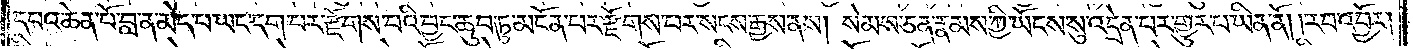དཔའ་ཆེན་པོ་བླ་ན་མེད་པ་ཡང་དག་པར་རྫོགས་པའི་བྱང་ཆུབ་ཏུ་མངོན་པར་རྫོགས་པར་སངས་རྒྱས་ནས། སེམས་ཅན་རྣམས་ཀྱི་ཡོངས་སུ་འདྲེན་པར་གྱུར་པ་ཡིན་ནོ། །རབ་འབྱོར།
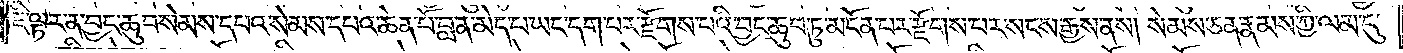ཇི་ལྟར་ན་བྱང་ཆུབ་སེམས་དཔའ་སེམས་དཔའ་ཆེན་པོ་བླ་ན་མེད་པ་ཡང་དག་པར་རྫོགས་པའི་བྱང་ཆུབ་ཏུ་མངོན་པར་རྫོགས་པར་སངས་རྒྱས་ནས། སེམས་ཅན་རྣམས་ཀྱི་ལམ་དུ་
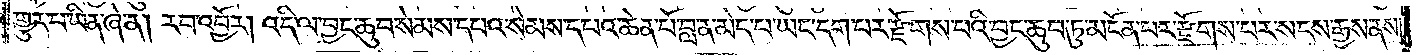གྱུར་པ་ཡིན་ཞེ་ན། རབ་འབྱོར། འདི་ལ་བྱང་ཆུབ་སེམས་དཔའ་སེམས་དཔའ་ཆེན་པོ་བླ་ན་མེད་པ་ཡང་དག་པར་རྫོགས་པའི་བྱང་ཆུབ་ཏུ་མངོན་པར་རྫོགས་པར་སངས་རྒྱས་ནས།
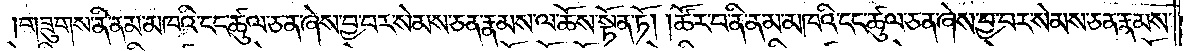གཟུགས་ནི་ནམ་མཁའི་ངང་ཚུལ་ཅན་ཞེས་བྱ་བར་སེམས་ཅན་རྣམས་ལ་ཆོས་སྟོན་ཏོ། །ཚོར་བ་ནི་ནམ་མཁའི་ངང་ཚུལ་ཅན་ཞེས་བྱ་བར་སེམས་ཅན་རྣམས་
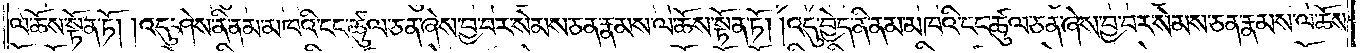ལ་ཆོས་སྟོན་ཏོ། །འདུ་ཤེས་ནི་ནམ་མཁའི་ངང་ཚུལ་ཅན་ཞེས་བྱ་བར་སེམས་ཅན་རྣམས་ལ་ཆོས་སྟོན་ཏོ། །འདུ་བྱེད་ནི་ནམ་མཁའི་ངང་ཚུལ་ཅན་ཞེས་བྱ་བར་སེམས་ཅན་རྣམས་ལ་ཆོས་
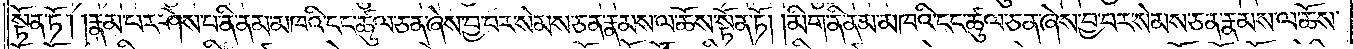སྟོན་ཏོ། །རྣམ་པར་ཤེས་པ་ནི་ནམ་མཁའི་ངང་ཚུལ་ཅན་ཞེས་བྱ་བར་སེམས་ཅན་རྣམས་ལ་ཆོས་སྟོན་ཏོ། །མིག་ནི་ནམ་མཁའི་ངང་ཚུལ་ཅན་ཞེས་བྱ་བར་སེམས་ཅན་རྣམས་ལ་ཆོས་
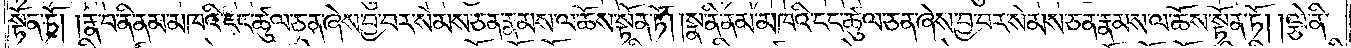སྟོན་ཏོ། །རྣ་བ་ནི་ནམ་མཁའི་ངང་ཚུལ་ཅན་ཞེས་བྱ་བར་སེམས་ཅན་རྣམས་ལ་ཆོས་སྟོན་ཏོ། །སྣ་ནི་ནམ་མཁའི་ངང་ཚུལ་ཅན་ཞེས་བྱ་བར་སེམས་ཅན་རྣམས་ལ་ཆོས་སྟོན་ཏོ། །ལྕེ་ནི་
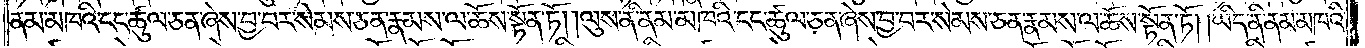ནམ་མཁའི་ངང་ཚུལ་ཅན་ཞེས་བྱ་བར་སེམས་ཅན་རྣམས་ལ་ཆོས་སྟོན་ཏོ། །ལུས་ནི་ནམ་མཁའི་ངང་ཚུལ་ཅན་ཞེས་བྱ་བར་སེམས་ཅན་རྣམས་ལ་ཆོས་སྟོན་ཏོ། །ཡིད་ནི་ནམ་མཁའི་
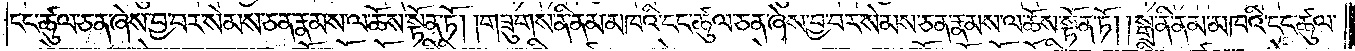ངང་ཚུལ་ཅན་ཞེས་བྱ་བར་སེམས་ཅན་རྣམས་ལ་ཆོས་སྟོན་ཏོ། །གཟུགས་ནི་ནམ་མཁའི་ངང་ཚུལ་ཅན་ཞེས་བྱ་བར་སེམས་ཅན་རྣམས་ལ་ཆོས་སྟོན་ཏོ། །སྒྲ་ནི་ནམ་མཁའི་ངང་ཚུལ་
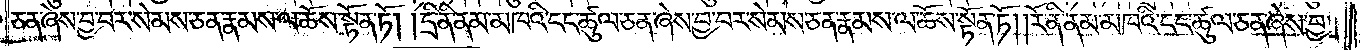ཅན་ཞེས་བྱ་བར་སེམས་ཅན་རྣམས་ལ་ཆོས་སྟོན་ཏོ། །དྲི་ནི་ནམ་མཁའི་ངང་ཚུལ་ཅན་ཞེས་བྱ་བར་སེམས་ཅན་རྣམས་ལ་ཆོས་སྟོན་ཏོ། །རོ་ནི་ནམ་མཁའི་ངང་ཚུལ་ཅན་ཞེས་བྱ་
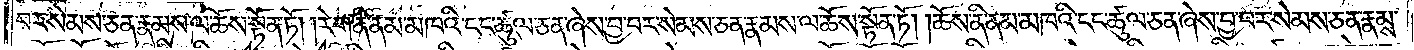བར་སེམས་ཅན་རྣམས་ལ་ཆོས་སྟོན་ཏོ། །རེག་ནི་ནམ་མཁའི་ངང་ཚུལ་ཅན་ཞེས་བྱ་བར་སེམས་ཅན་རྣམས་ལ་ཆོས་སྟོན་ཏོ། །ཆོས་ནི་ནམ་མཁའི་ངང་ཚུལ་ཅན་ཞེས་བྱ་བར་སེམས་ཅན་རྣམས་
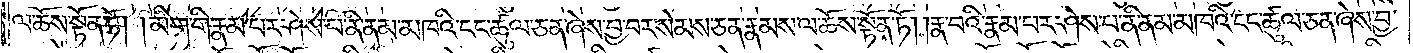ལ་ཆོས་སྟོན་ཏོ། །མིག་གི་རྣམ་པར་ཤེས་པ་ནི་ནམ་མཁའི་ངང་ཚུལ་ཅན་ཞེས་བྱ་བར་སེམས་ཅན་རྣམས་ལ་ཆོས་སྟོན་ཏོ། །རྣ་བའི་རྣམ་པར་ཤེས་པ་ནི་ནམ་མཁའི་ངང་ཚུལ་ཅན་ཞེས་བྱ་
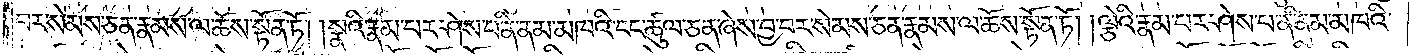བར་སེམས་ཅན་རྣམས་ལ་ཆོས་སྟོན་ཏོ། །སྣའི་རྣམ་པར་ཤེས་པ་ནི་ནམ་མཁའི་ངང་ཚུལ་ཅན་ཞེས་བྱ་བར་སེམས་ཅན་རྣམས་ལ་ཆོས་སྟོན་ཏོ། །ལྕེའི་རྣམ་པར་ཤེས་པ་ནི་ནམ་མཁའི་
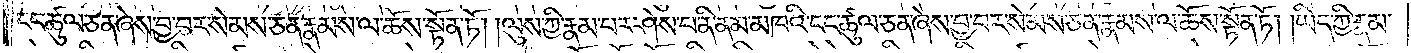ངང་ཚུལ་ཅན་ཞེས་བྱ་བར་སེམས་ཅན་རྣམས་ལ་ཆོས་སྟོན་ཏོ། །ལུས་ཀྱི་རྣམ་པར་ཤེས་པ་ནི་ནམ་མཁའི་ངང་ཚུལ་ཅན་ཞེས་བྱ་བར་སེམས་ཅན་རྣམས་ལ་ཆོས་སྟོན་ཏོ། །ཡིད་ཀྱི་རྣམ་
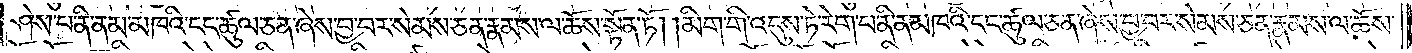ཤེས་པ་ནི་ནམ་མཁའི་ངང་ཚུལ་ཅན་ཞེས་བྱ་བར་སེམས་ཅན་རྣམས་ལ་ཆོས་སྟོན་ཏོ། །མིག་གི་འདུས་ཏེ་རེག་པ་ནི་ནམ་མཁའི་ངང་ཚུལ་ཅན་ཞེས་བྱ་བར་སེམས་ཅན་རྣམས་ལ་ཆོས་
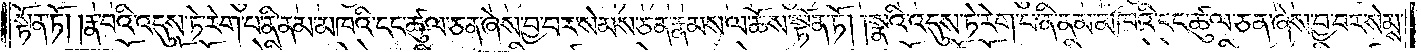སྟོན་ཏོ། །རྣ་བའི་འདུས་ཏེ་རེག་པ་ནི་ནམ་མཁའི་ངང་ཚུལ་ཅན་ཞེས་བྱ་བར་སེམས་ཅན་རྣམས་ལ་ཆོས་སྟོན་ཏོ། །སྣའི་འདུས་ཏེ་རེག་པ་ནི་ནམ་མཁའི་ངང་ཚུལ་ཅན་ཞེས་བྱ་བར་སེམས་
